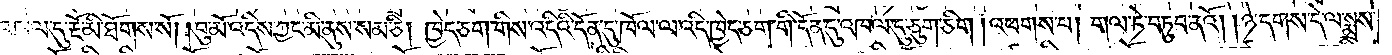འཁལ་དུ་རྔོ་མི་ཐོགས་སོ། །བུ་མོ་འདིས་ཀྱང་མི་ནུས་སམ་ཅི། ཁྱེད་ཅག་གིས་འདིའི་དོན་དུ་ཁོལ་ལ་འདི་ཁྱེད་ཅག་གི་དོན་དུ་འཁལ་དུ་ཅུག་ཅིག །འཕགས་པ། གལ་ཏེ་བཏུབ་ནའོ། །ཉེ་དགས་དེ་ལ་སྨྲས་
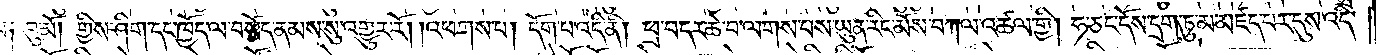པ༑ བུ་མོ། གྱིས་ཤིག་དང་ཁྱོད་ལ་བསོད་ནམས་སུ་འགྱུར་རོ། །འཕགས་པ། དོག་པ་འདི་ནི། ཕྲ་བདར་ཆེ་བ་ལགས་པས་ཡུན་རིང་མོས་བཀའ་འཚལ་གྱི། ཧ་ཅང་དོས་དྲག་ཏུ་མ་མཛད་པར་དུས་འདི་
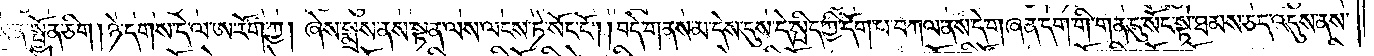ཙམ་ན་སྤྱོན་ཅིག །ཉེ་དགས་དེ་ལ་ཨ་རོག་ཀྱ། ཞེས་སྨྲས་ནས་སྟན་ལས་ལངས་ཏེ་སོང་ངོ༌། །བདེ་གནས་མ་དེས་དུས་དེ་སྲིད་ཀྱི་དོག་པ་བཀལ་ནས་དེ་གཞན་དག་གི་གན་དུ་སོང་སྟེ་ཐམས་ཅད་འདུས་ནས་
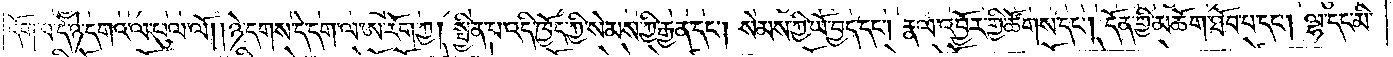དོག་པ་དེ་ཉེ་དགའ་ལ་ཕུལ་ལོ། །ཉེ་དགས་དེ་དག་ལ་ཨ་རོག་ཀྱ། སྦྱིན་པ་འདི་ཁྱོད་ཀྱི་སེམས་ཀྱི་རྒྱན་དང༌། སེམས་ཀྱི་ཡོ་བྱད་དང༌། རྣལ་འབྱོར་གྱི་ཚོགས་དང༌། དོན་གྱི་མཆོག་ཐོབ་པ་དང༌། ལྷ་དང་མི་
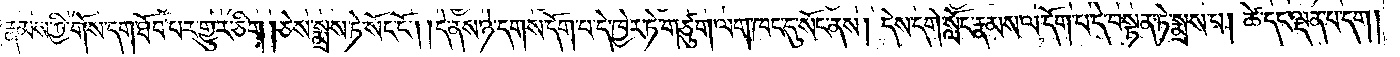རྣམས་ཀྱི་གོས་དག་ཐོབ་པར་གྱུར་ཅིག །ཅེས་སྨྲས་ཏེ་སོང་ངོ༌། །དེ་ནས་ཉེ་དགས་དོག་པ་དེ་ཁྱེར་ཏེ་གཙུག་ལག་ཁང་དུ་སོང་ནས། དེས་དགེ་སློང་རྣམས་ལ་དོག་པ་དེ་བསྟན་ཏེ་སྨྲས་པ། ཚེ་དང་ལྡན་པ་དག །
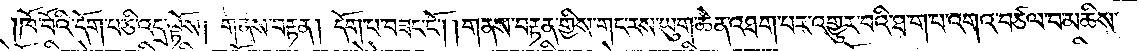ཁོ་བོའི་དོག་པ་ཅི་འདྲ་ལྟོས། གནས་བརྟན། དོག་པ་བཟང་ངོ༌། །གནས་བརྟན་གྱིས་གང་རས་ཡུག་ཆེན་འཐག་པར་འགྱུར་བའི་ཐ་ག་པ་འགའ་བཙལ་པ་མཆིས་
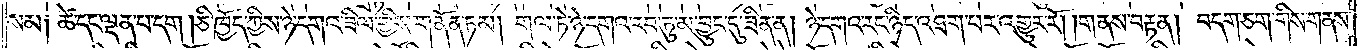སམ༑ ཚེ་དང་ལྡན་པ་དག །ཅི་ཁྱོད་ཀྱིས་ཉེ་དགའ་ཟིལ་གྱིས་གནོན་ཏམ། གལ་ཏེ་ཉེ་དགའ་རབ་ཏུ་མ་བྱུང་དུ་ཟིན་ན། ཉེ་དགའ་རང་ཉིད་འཐག་པར་འགྱུར་རོ། །གནས་བརྟན། བདག་ཅག་གིས་གནས་
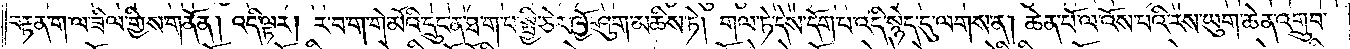བརྟན་ག་ལ་ཟིལ་གྱིས་གནོན། འདི་ལྟར། ར་བ་ག་གེ་མོའི་དྲུང་ན་ཐ་ག་པ་སྤྱི་ཅེར་ཁྱོ་ཤུག་མཆིས་ཏེ། གལ་ཏེ་དེས་དོག་པ་འདི་སྙེད་དུ་ལགས་ན། ཆེན་པོ་ལ་འོས་པའི་རས་ཡུག་ཆེན་འགྲུབ་
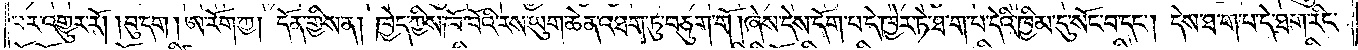པར་འགྱུར་རོ། །བུ་དག །ཨ་རོག་ཀྱ། དོན་གྱིས་ན། ཁྱེད་ཀྱིས་ཁོ་བོའི་རས་ཡུག་ཆེན་འཐག་ཏུ་བཅུག་གོ །ཞེས་དེས་དོག་པ་དེ་ཁྱེར་ཏེ་ཐ་ག་པ་དེའི་ཁྱིམ་དུ་སོང་བ་དང༌། དེས་ཐ་ག་པ་དེ་ཐག་རིང་
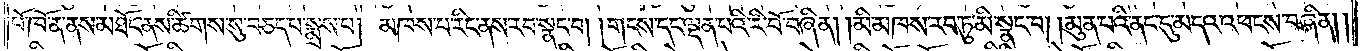པོ་ཁོ་ན་ནས་མཐོང་ནས་ཚིགས་སུ་བཅད་པ་སྨྲས་པ། མཁས་པ་རིང་ནས་རབ་སྣང་བ། །གངས་དང་ལྡན་པའི་རི་བོ་བཞིན། །མི་མཁས་རབ་ཏུ་མི་སྣང་བ། །མུན་པའི་ནང་དུ་མདའ་འཕངས་བཞིན། །
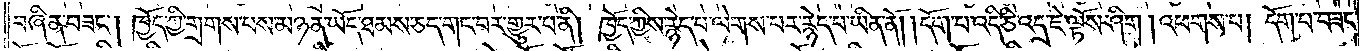བཞིན་བཟང༌། ཁྱོད་ཀྱི་གྲགས་པས་མཉན་ཡོད་ཐམས་ཅད་གང་བར་གྱུར་པ་ནི། ཁྱོད་ཀྱིས་རྙེད་པ་ལེགས་པར་རྙེད་པ་ཡིན་ནོ། །དོག་པ་འདི་ཅི་འདྲ་ཇེ་ལྟོས་ཤིག །འཕགས་པ། དོག་པ་བཟང་
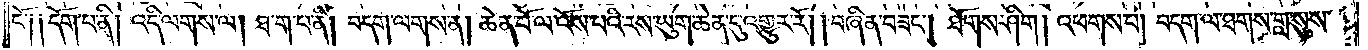ངོ༑ ༑དོག་པ་ནི། འདི་ལགས་ལ། ཐ་ག་པ་ནི། བདག་ལགས་ན། ཆེན་པོ་ལ་འོས་པའི་རས་ཡུག་ཆེན་དུ་འགྱུར་རོ། །བཞིན་བཟང༌། ཐོགས་ཤིག །འཕགས་པ། བདག་ལ་ཐགས་གླ་སུས་
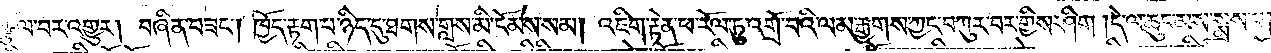སྩོལ་བར་འགྱུར། བཞིན་བཟང༌། ཁྱོད་རྟག་པ་ཉིད་དུ་ཐགས་གླས་མི་ངོམས་སམ། འཇིག་རྟེན་ཕ་རོལ་ཏུ་འགྲོ་བའི་ལམ་རྒྱགས་ཀྱང་བཀུར་བར་གྱིས་ཤིག །དེ་ལ་ཆུང་མས་སྨྲས་པ།
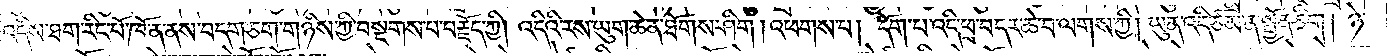འདིས་ཐག་རིང་པོ་ཁོ་ན་ནས་བདག་ཅག་གཉིས་ཀྱི་བསྔགས་པ་བརྗོད་ཀྱི། འདིའི་རས་ཡུག་ཆེན་ཐོགས་ཤིག །འཕགས་པ། དོག་པ་འདི་ཕྲ་བདར་ཆེ་བ་ལགས་ཀྱི། ཡུན་འདི་ཙམ་ན་སྤྱོན་ཅིག །ཉེ་
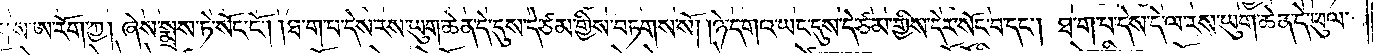གས་ཨ་རོག་ཀྱ། ཞེས་སྨྲས་ཏེ་སོང་ངོ༌། །ཐ་ག་པ་དེས་རས་ཡུག་ཆེན་དེ་དུས་དེ་ཙམ་གྱིས་བཏགས་སོ། །ཉེ་དགའ་ཡང་དུས་དེ་ཙམ་གྱིས་དེར་སོང་བ་དང༌། ཐ་ག་པ་དེས་དེ་ལ་རས་ཡུག་ཆེན་དེ་ཕུལ་
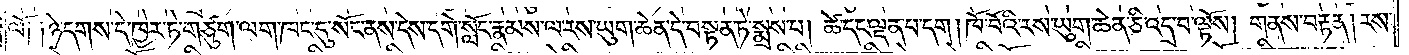ལོ༑ ༑ཉེ་དགས་དེ་ཁྱེར་ཏེ་གཙུག་ལག་ཁང་དུ་སོང་ནས་དེས་དགེ་སློང་རྣམས་ལ་རས་ཡུག་ཆེན་དེ་བསྟན་ཏེ་སྨྲས་པ། ཚེ་དང་ལྡན་པ་དག །ཁོ་བོའི་རས་ཡུག་ཆེན་ཅི་འདྲ་བ་ལྟོས། གནས་བརྟན། རས་
